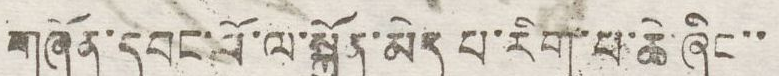གཞོན་དབང་ལ་སྐྱོན་མེད་པ་རིག་པ་ཆེ་ཞིང་་
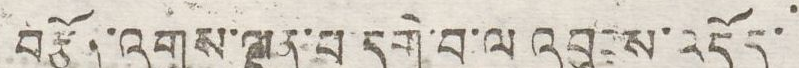བརྩོན་འགྲུས་ལྡན་པ་དགེ་བ་ལ་འབུངས་འདོད་
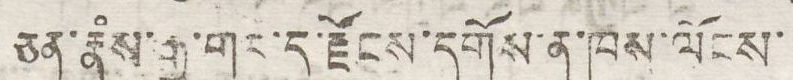ཅན་རྣཾས་རྒྱ་གར་དུ་རྫོངས་དགོས་ན་ཁས་ལོངས་
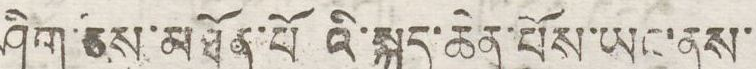ཤིག་ཅེས་མཐོན་པོའི་སྐད་ཆེན་པོས་ཡང་ནས་
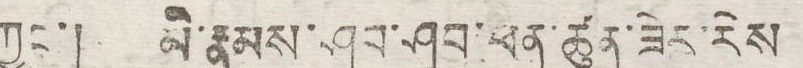ཀྱང་། མི་རྣམས་ཤབ་ཤུབ་ཕན་ཚུན་ཟེར་རེས
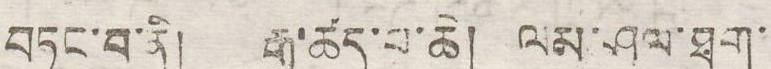བཏང་བ་ནི། རྒྱ་ཚད་པ་ཆེ། ལམ་ཤུལ་ཐག་
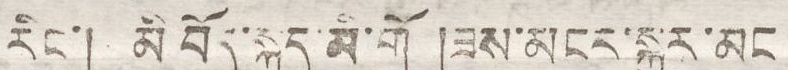རིང་། མི བོད་སྐད་མི་གོ །ཟས་མངར་སྐྱུར་མང
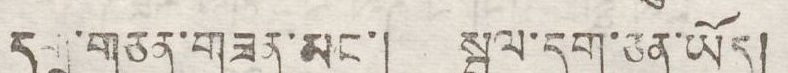དགྲ་གཅན་གཟན་མང་། སྦྲུལ་དུག་ཅན་ཡོད།
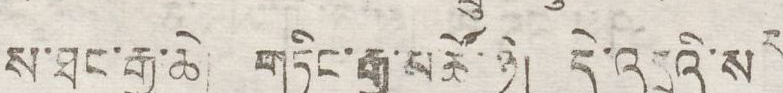ས་ཐང་རྒྱ་ཆེ། གཏིང་རྒྱ་མཚོ་ཉེ། དེ་འདྲའི་སར་
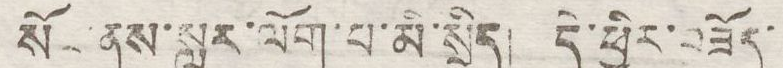སོང་ནས་སླར་ལོག་པ་མི་སྲིད། དེ་ཕྱིརར་བཟོད་
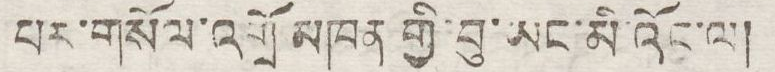པར་གསོལ་འགྲོ་མཁན་གྱི་བུ་ཡང་མི་འོང་ལ།
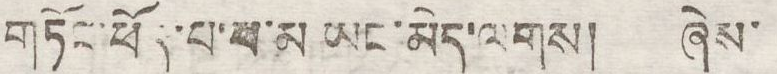གཏོང་ཕོད་པ་མ ཡང་མེད་ལགས། ཞེས་
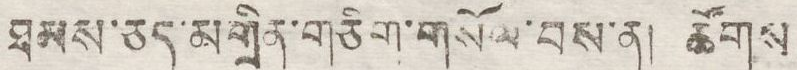ཐམས་ཅད་མགྲིན་གཅིག་གསོལ་བས་ན། ཚོགས
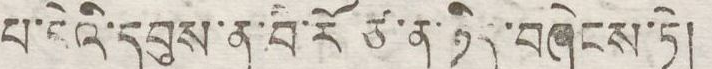པ་དེའི་དབུས་ན་བེེ་རོ་ཙ་ན་ཉིད་བཞེངས་ཏེ།
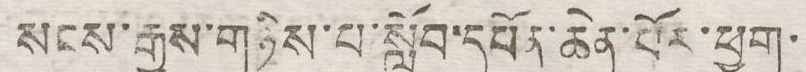སངས་རྒྱས་གཉིས་པ་སློབ་དཔོན་ཆེན་པོར་ཕྱག་
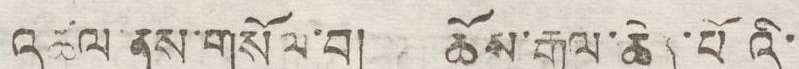འཚལ་ནས་གསོལ་བ། ཆོས་རྒྱལ་ཆེན་པའི་
